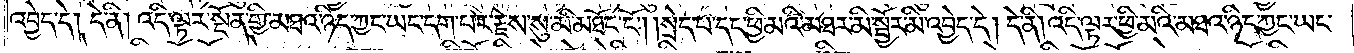འབྱེད་དེ། དེ་ནི། འདི་ལྟར་སྔོན་གྱི་མཐའ་ཉིད་ཀྱང་ཡང་དག་པར་རྗེས་སུ་མི་མཐོང་ངོ༌། །སྲེད་པ་དང་ཕྱི་མའི་མཐར་མི་སྦྱོར་མི་འབྱེད་དེ། དེ་ནི། འདི་ལྟར་ཕྱི་མའི་མཐའ་ཉིད་ཀྱང་ཡང་
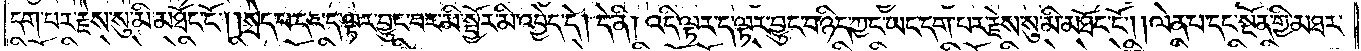དག་པར་རྗེས་སུ་མི་མཐོང་ངོ༌། །སྲེད་པ་དང་ད་ལྟར་བྱུང་བར་མི་སྦྱོར་མི་འབྱེད་དེ། དེ་ནི། འདི་ལྟར་ད་ལྟར་བྱུང་བ་ཉིད་ཀྱང་ཡང་དག་པར་རྗེས་སུ་མི་མཐོང་ངོ༌། །ལེན་པ་དང་སྔོན་གྱི་མཐར་
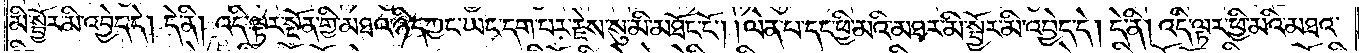མི་སྦྱོར་མི་འབྱེད་དེ། དེ་ནི། འདི་ལྟར་སྔོན་གྱི་མཐའ་ཉིད་ཀྱང་ཡང་དག་པར་རྗེས་སུ་མི་མཐོང་ངོ༌། །ལེན་པ་དང་ཕྱི་མའི་མཐར་མི་སྦྱོར་མི་འབྱེད་དེ། དེ་ནི། འདི་ལྟར་ཕྱི་མའི་མཐའ་
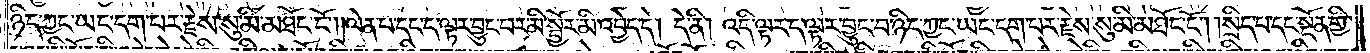ཉིད་ཀྱང་ཡང་དག་པར་རྗེས་སུ་མི་མཐོང་ངོ༌། །ལེན་པ་དང་ད་ལྟར་བྱུང་བར་མི་སྦྱོར་མི་འབྱེད་དེ། དེ་ནི། འདི་ལྟར་ད་ལྟར་བྱུང་བ་ཉིད་ཀྱང་ཡང་དག་པར་རྗེས་སུ་མི་མཐོང་ངོ༌། །སྲིད་པ་དང་སྔོན་གྱི་
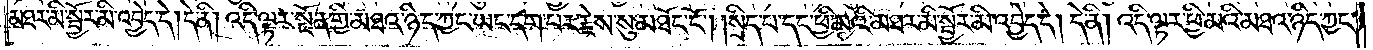མཐར་མི་སྦྱོར་མི་འབྱེད་དེ། དེ་ནི། འདི་ལྟར་སྔོན་གྱི་མཐའ་ཉིད་ཀྱང་ཡང་དག་པར་རྗེས་སུ་མཐོང་ངོ༌། །སྲིད་པ་དང་ཕྱི་མའི་མཐར་མི་སྦྱོར་མི་འབྱེད་དེ། དེ་ནི། འདི་ལྟར་ཕྱི་མའི་མཐའ་ཉིད་ཀྱང་
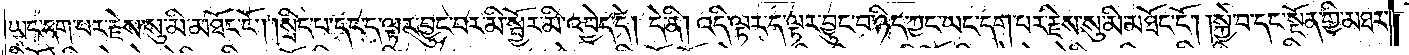ཡང་དག་པར་རྗེས་སུ་མི་མཐོང་ངོ༌། །སྲིད་པ་དང་ད་ལྟར་བྱུང་བར་མི་སྦྱོར་མི་འབྱེད་དེ། དེ་ནི། འདི་ལྟར་ད་ལྟར་བྱུང་བ་ཉིད་ཀྱང་ཡང་དག་པར་རྗེས་སུ་མི་མཐོང་ངོ༌། །སྐྱེ་བ་དང་སྔོན་གྱི་མཐར་
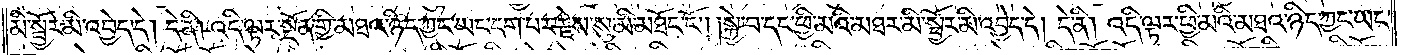མི་སྦྱོར་མི་འབྱེད་དེ། དེ་ནི། འདི་ལྟར་སྔོན་གྱི་མཐའ་ཉིད་ཀྱང་ཡང་དག་པར་རྗེས་སུ་མི་མཐོང་ངོ༌། །སྐྱེ་བ་དང་ཕྱི་མའི་མཐར་མི་སྦྱོར་མི་འབྱེད་དེ། དེ་ནི། འདི་ལྟར་ཕྱི་མའི་མཐའ་ཉིད་ཀྱང་ཡང་
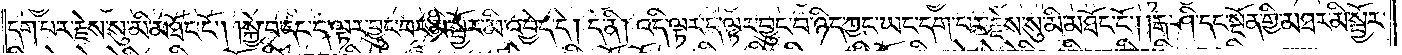དག་པར་རྗེས་སུ་མི་མཐོང་ངོ༌། །སྐྱེ་བ་དང་ད་ལྟར་བྱུང་བར་མི་སྦྱོར་མི་འབྱེད་དེ། དེ་ནི། འདི་ལྟར་ད་ལྟར་བྱུང་བ་ཉིད་ཀྱང་ཡང་དག་པར་རྗེས་སུ་མི་མཐོང་ངོ༌། །རྒ་ཤི་དང་སྔོན་གྱི་མཐར་མི་སྦྱོར་
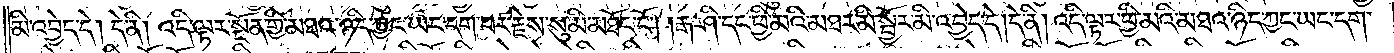མི་འབྱེད་དེ། དེ་ནི། འདི་ལྟར་སྔོན་གྱི་མཐའ་ཉིད་ཀྱང་ཡང་དག་པར་རྗེས་སུ་མི་མཐོང་ངོ༌། །རྒ་ཤི་དང་ཕྱི་མའི་མཐར་མི་སྦྱོར་མི་འབྱེད་དེ། དེ་ནི། འདི་ལྟར་ཕྱི་མའི་མཐའ་ཉིད་ཀྱང་ཡང་དག་
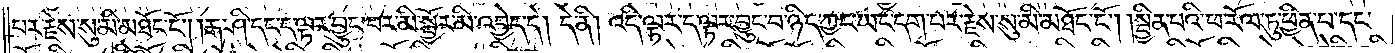པར་རྗེས་སུ་མི་མཐོང་ངོ༌། །རྒ་ཤི་དང་ད་ལྟར་བྱུང་བར་མི་སྦྱོར་མི་འབྱེད་དེ། དེ་ནི། འདི་ལྟར་ད་ལྟར་བྱུང་བ་ཉིད་ཀྱང་ཡང་དག་པར་རྗེས་སུ་མི་མཐོང་ངོ༌། །སྦྱིན་པའི་ཕ་རོལ་ཏུ་ཕྱིན་པ་དང་
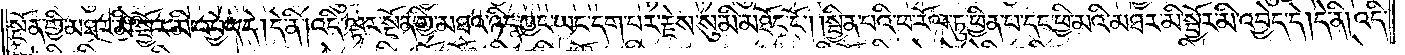སྔོན་གྱི་མཐར་མི་སྦྱོར་མི་འབྱེད་དེ། དེ་ནི། འདི་ལྟར་སྔོན་གྱི་མཐའ་ཉིད་ཀྱང་ཡང་དག་པར་རྗེས་སུ་མི་མཐོང་ངོ༌། །སྦྱིན་པའི་ཕ་རོལ་ཏུ་ཕྱིན་པ་དང་ཕྱི་མའི་མཐར་མི་སྦྱོར་མི་འབྱེད་དེ། དེ་ནི། འདི་
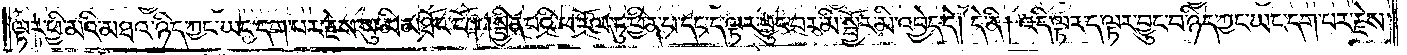ལྟར་ཕྱི་མའི་མཐའ་ཉིད་ཀྱང་ཡང་དག་པར་རྗེས་སུ་མི་མཐོང་ངོ༌། །སྦྱིན་པའི་ཕ་རོལ་ཏུ་ཕྱིན་པ་དང་ད་ལྟར་བྱུང་བར་མི་སྦྱོར་མི་འབྱེད་དེ། དེ་ནི། འདི་ལྟར་ད་ལྟར་བྱུང་བ་ཉིད་ཀྱང་ཡང་དག་པར་རྗེས་
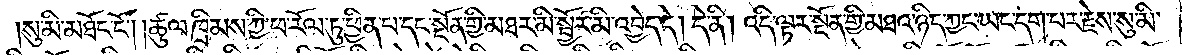སུ་མི་མཐོང་ངོ༌། །ཚུལ་ཁྲིམས་ཀྱི་ཕ་རོལ་ཏུ་ཕྱིན་པ་དང་སྔོན་གྱི་མཐར་མི་སྦྱོར་མི་འབྱེད་དེ། དེ་ནི། འདི་ལྟར་སྔོན་གྱི་མཐའ་ཉིད་ཀྱང་ཡང་དག་པར་རྗེས་སུ་མི་
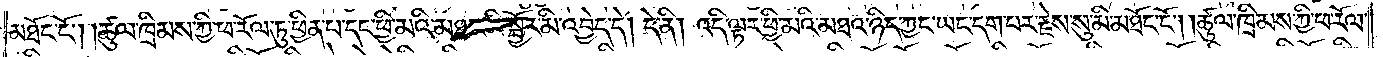མཐོང་ངོ༌། །ཚུལ་ཁྲིམས་ཀྱི་ཕ་རོལ་ཏུ་ཕྱིན་པ་དང་ཕྱི་མའི་མཐར་མི་སྦྱོར་མི་འབྱེད་དེ། དེ་ནི། འདི་ལྟར་ཕྱི་མའི་མཐའ་ཉིད་ཀྱང་ཡང་དག་པར་རྗེས་སུ་མི་མཐོང་ངོ༌། །ཚུལ་ཁྲིམས་ཀྱི་ཕ་རོལ་
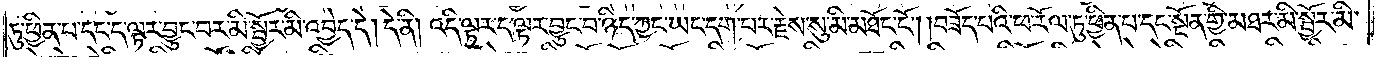ཏུ་ཕྱིན་པ་དང་ད་ལྟར་བྱུང་བར་མི་སྦྱོར་མི་འབྱེད་དེ། དེ་ནི། འདི་ལྟར་ད་ལྟར་བྱུང་བ་ཉིད་ཀྱང་ཡང་དག་པར་རྗེས་སུ་མི་མཐོང་ངོ༌། །བཟོད་པའི་ཕ་རོལ་ཏུ་ཕྱིན་པ་དང་སྔོན་གྱི་མཐར་མི་སྦྱོར་མི་
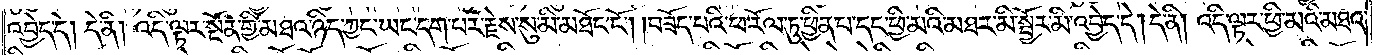འབྱེད་དེ། དེ་ནི། འདི་ལྟར་སྔོན་གྱི་མཐའ་ཉིད་ཀྱང་ཡང་དག་པར་རྗེས་སུ་མི་མཐོང་ངོ༌། །བཟོད་པའི་ཕ་རོལ་ཏུ་ཕྱིན་པ་དང་ཕྱི་མའི་མཐར་མི་སྦྱོར་མི་འབྱེད་དེ། དེ་ནི། འདི་ལྟར་ཕྱི་མའི་མཐའ་
